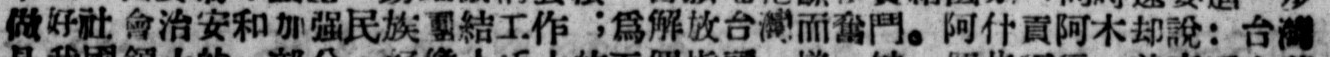做好社會治安和加強民族團結工作；爲解放台灣而奮鬥。阿什貢阿木却說：台灣
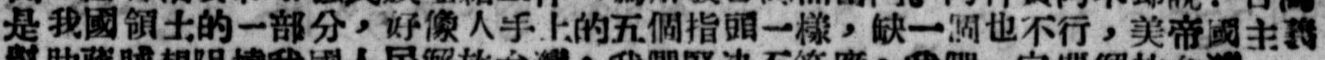是我國領土的一部分，好像人手上的五個指頭一樣，缺一個也不行，美帝國主義
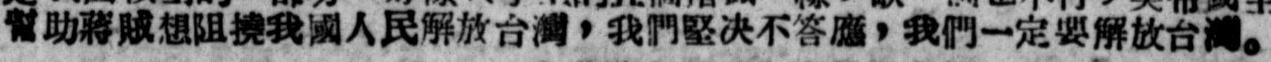幫助蔣賊想阻撓我國人民解放台灣，我們堅決不答應，我們一定要解放台灣。
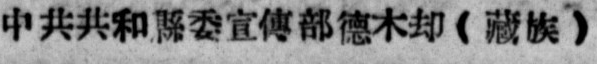中共共和縣委宣傳部德木却（藏族）
